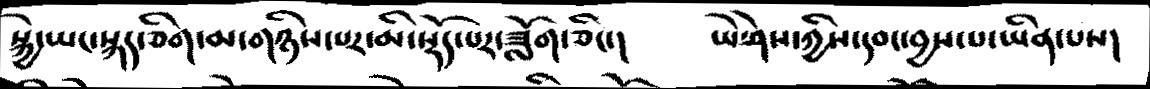སྐྱེ་ཡང་སྐད་ཅིག་མ་གཉིས་པར་མི་སྡོད་པར་ཟློག་ཅིང་།   ཡེ་ཤེས་ཀྱིས་དབང་བྱས་པ་ཡིན་པས།
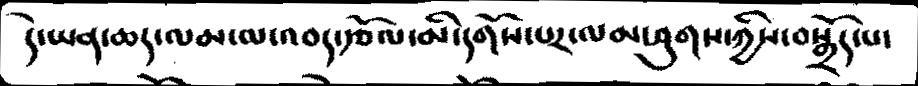དེ་ཡན་ཆད་ལམ་ལ་འབད་རྩོལ་མི་དགོས་པར་ལམ་ཤུགས་ཀྱིས་བསྒྲོད་པ་
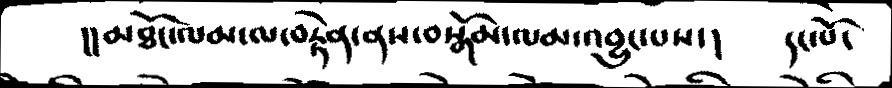།།མཐོང་ལམ་ལ་བརྟེན་ནས་བསྒོམ་ལམ་འབྱུང་པས་།   དང་པོ་
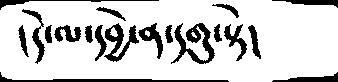།དེ་ལ་དབྱེ་ན་དགུ་སྟེ།
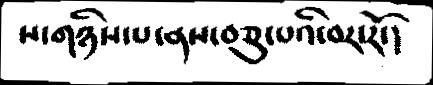ས་གཉིས་པ་ནས་བཅུ་པའི་བར་རོ་།
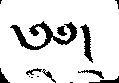༄༅།
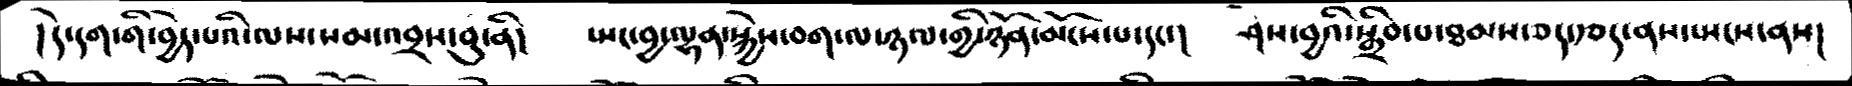།དེ་དག་གི་བྱེད་པའི་ལས་སམ་འབྲས་བུ་ནི།    སྤང་བྱ་ལྷན་སྐྱེས་་བག་ལ་ཉལ་གྱི་ཉོན་མོངས་པ་དང་།   ཤེས་བྱའི་སྒྲིབ་པ་ཐམས་ཅད་རྩད་ནས་སྤངས་ནས།
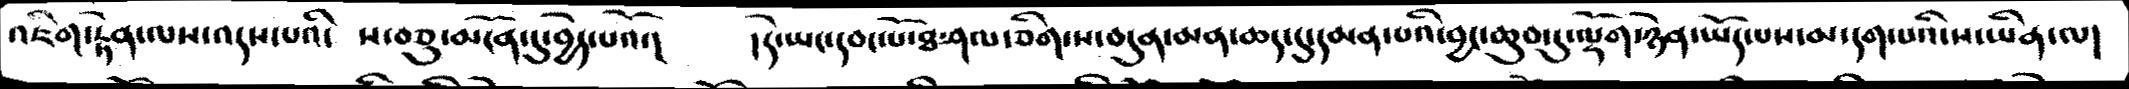འཇིག་རྟེན་ལས་འདས་པའི་ས་བཅུ་མངོན་དུ་བྱེད་པའོ་།   །དེ་ཡང་དབང་པོ་ཐ་ཤལ་ཅིག་ས་བདུན་མན་ཆད་དུ་དམན་པའི་བྱང་ཆུབ་དུ་ལྡོག་ཉེན་ཡོད་པས་མ་དག་པའི་ས་ཡིན་ལ།
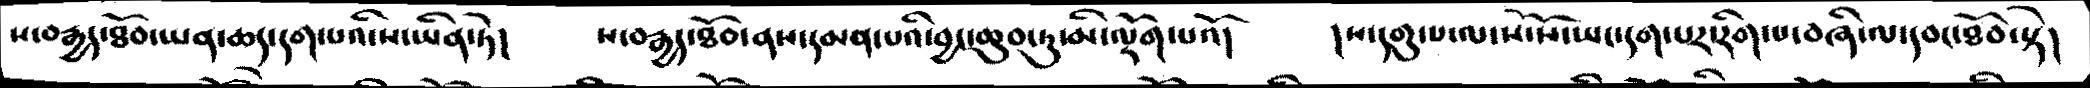ས་བརྒྱད་ཐོབ་ཡན་ཆད་དག་པའི་ས་ཡིན་ཏེ།   ས་བརྒྱད་ཐོབ་ནས་དམན་པའི་བྱང་ཆུབ་ཏུ་མི་ལྡོག་པའོ།   །ས་དགུ་པ་ལ་སོ་སོ་ཡང་དག་པར་རིག་པ་བཞི་ལ་དབང་ཐོབ་སྟེ།
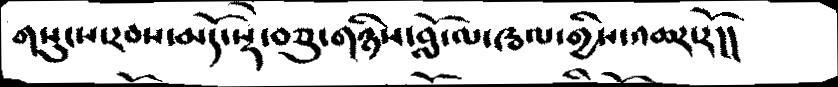གསུངས་རབས་མདོ་སྡེ་བཅུ་གཉིས་བློ་ལ་ཝལ་གྱིས་འཆར་རོ།།
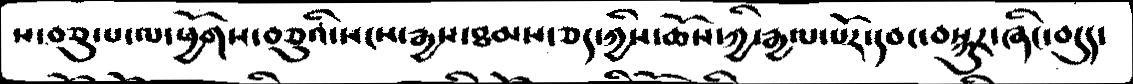ས་བཅུ་པ་ལ་ཕྱོགས་བཅུའི་སངས་རྒྱས་ཐམས་ཅད་ཀྱིས་ཆོས་ཀྱི་རྒྱལ་པོར་དབང་བསྐུར་ཞིང་བདུད་
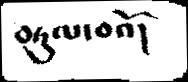བཏུལ་བའོ།
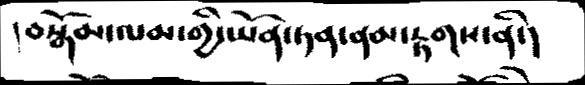།བསྒོམ་ལམ་གྱི་ཡོན་ཏན་ནམ་རྟགས་ནི་།
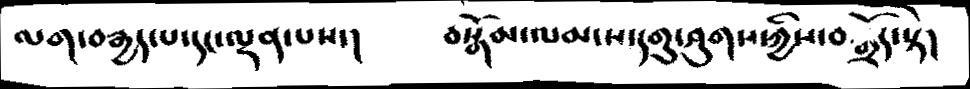ལག་བརྒྱད་པ་དང་ལྡན་པས་།   བསྒོམ་ལམ་ས་དགུ་ཤུགས་ཀྱིས་བསྒྲོད་སྟེ།
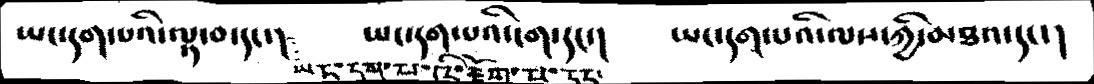ཡང་དག་པའི་ལྟ་བ་དང་།  ཡང་དག་པ་འི་རྟོག་པ་དང་།  ཡང་དག་་པའི་ངག་དང་།   ཡང་དག་པའི་ལས་ཀྱི་མཐའ་དང་།
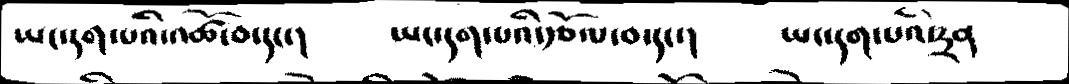ཡང་དག་པའི་འཚོ་བ་དང་།   ཡང་དག་པའི་རྩོལ་བ་དང་།   ཡང་དག་པའི་དྲན
